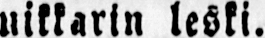uikkarin leski.
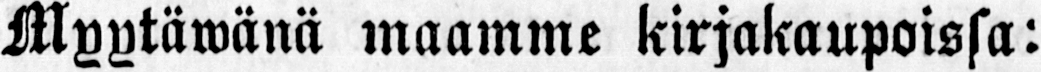Myytäwänä maamme kirjakaupoissa:
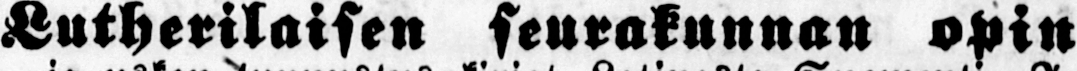Lutherilaisen seurakunnan opin
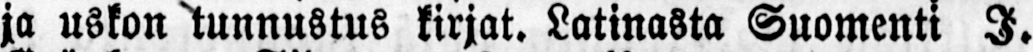ja uskon tunnustus kirjat. Latinasta Suomenti I.
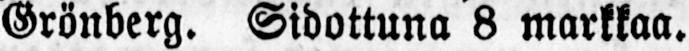Grönberg. Sidottuna 8 markkaa.
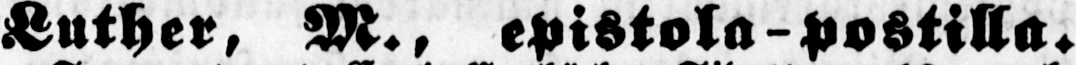Luther, M., epistola-postilla.
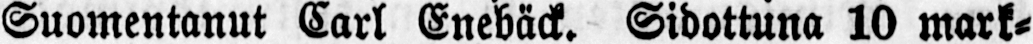Suomentanut Carl Enebäck. Sidottuna 10 mark-
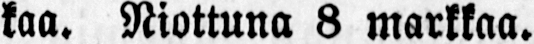kaa. Niottuna 8 markkaa.
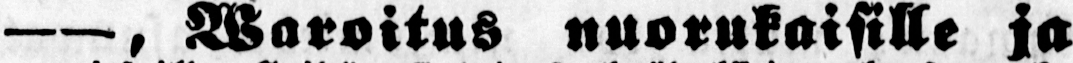—, Waroitus nuorukaisille ja
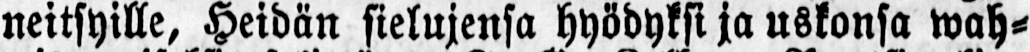neitsyille, Heidän sielujensa hyödyksi ja uskonsa wah-
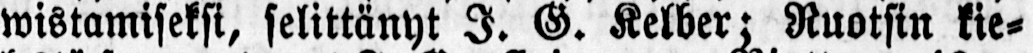wistamiseksi, selittänyt I. G. Kelber: Ruotsin kie-
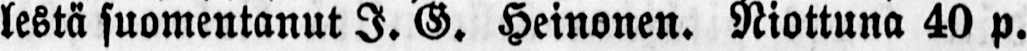lestä suomentanut I. G. Heinonen. Niottuna 40 p.
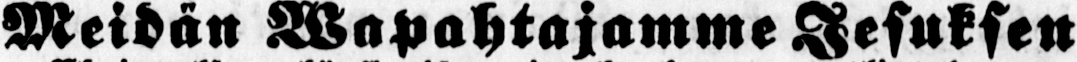Meidän Wapahtajamme Jesuksen
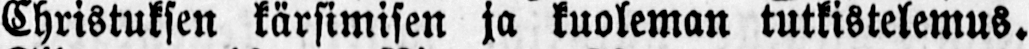Christuksen kärsimisen ja kuoleman tutkistelemus.
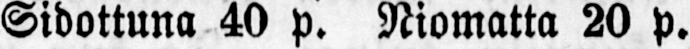Sidottuna 40 p. Niomatta 20 p.
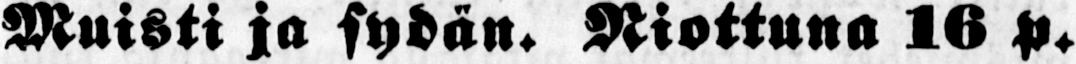Muisti ja sydän. Niottuna 16 p.
